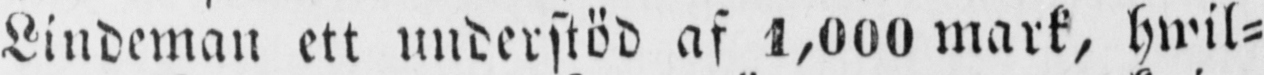Lindeman ett understöd af 1000 mark, hwil-
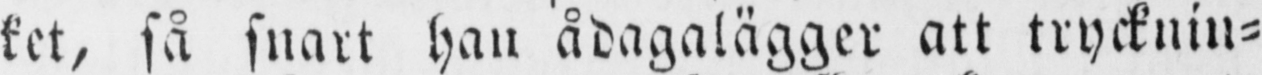ket, så snart han ådagalägger att trycknin-
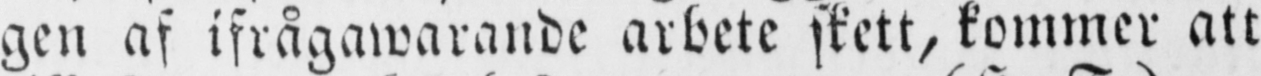gen af ifrågawarande arbete skett, kommer att
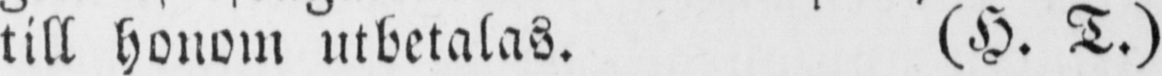till honom utbetalas. (H. T.)
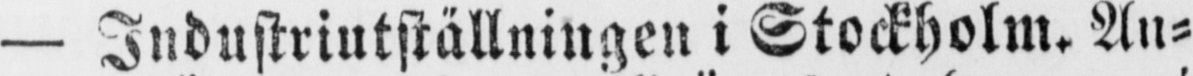— Industriutställningen i Stockholm. An-
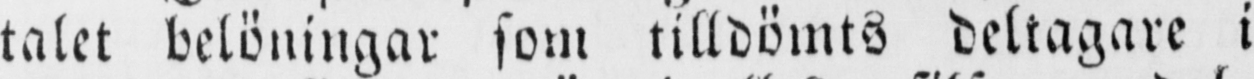talet belöningar som tilldömts deltagare i
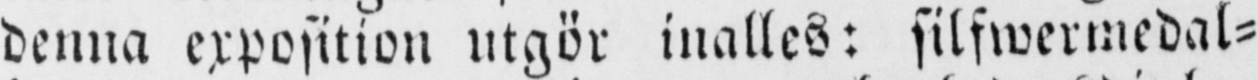denna exposition utgör inalles: silfwermedal-
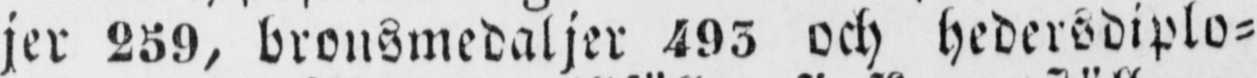jer 259, bronsmedaljer 493 och hedersdiplo-
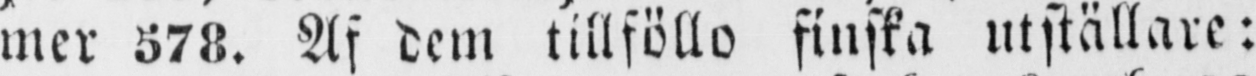mer 578. Af dem tillföllo finska utställare:
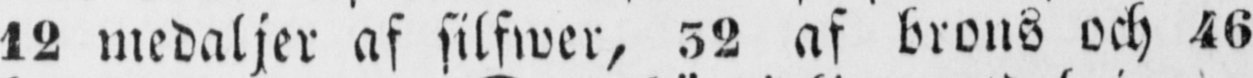12 medaljer af silfwer, 32 af brons och 46
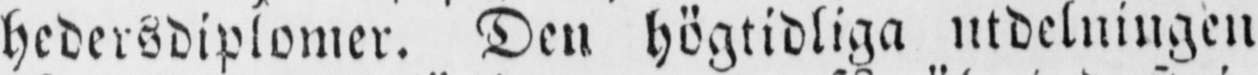hedersdiplomer. Den högtidliga utdelningen
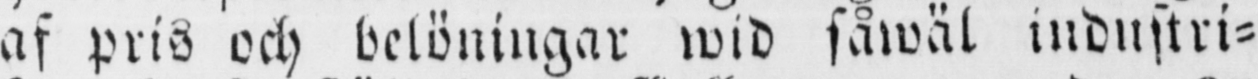af pris och belöningar wid såwäl industri-
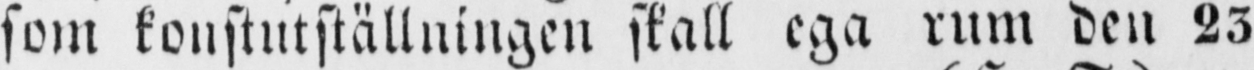som konstutställningen skall ega rum den 23
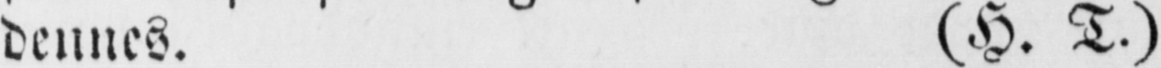dennes. (H. T.)
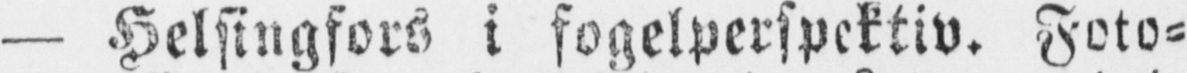— Helsingfors i fogelperspektiv. Foto-
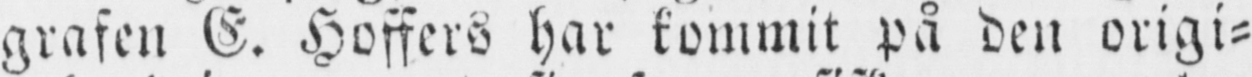grafen E. Hoffers har kommit på den origi-
